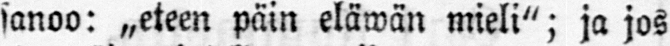sanoo: ˶eteen päin eläwän mieli"; ja jos
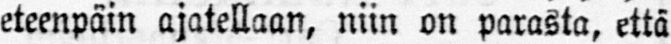eteenpäin ajatellaan, niin on parasta, että
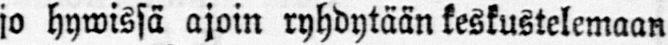jo hywissä ajoin ryhdytään keskustelemaan
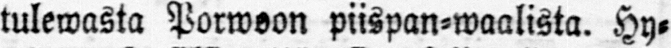tulewasta Porwoon piispan-waalista. Hy-
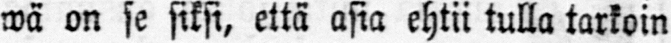wä on se siksi, että asia ehtii tulla tarkoin
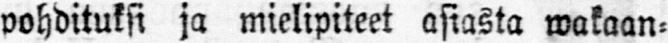pohdituksi ja mielipiteet asiasta wakaan-
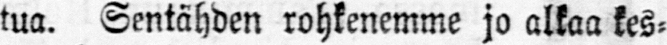tua. Sentähden rohkenemme jo alkaa kes-
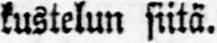kustelun siitä.
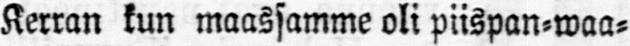Kerran kun maassamme oli piispan-waa-
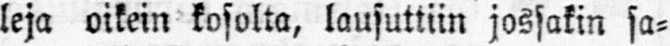leja oikein kosolta, lausuttiin jossakin sa-
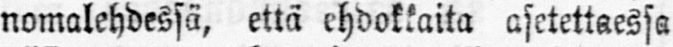nomalehdessä, että ehdokkaita asetettaessa
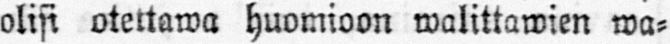olisi otettawa huomioon walittawien wa-
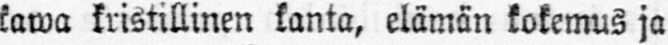kawa kristillinen kanta, elämän kokemus ja
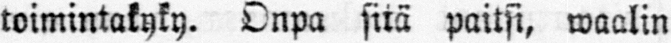toimintakyky. Onpa sitä paitsi, waalin
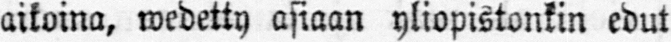aioina, wedetty asiaan yliopistonkin edut
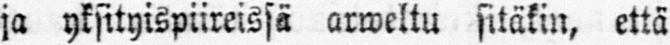ja yksityispiireissä arweltu sitäkin, että
